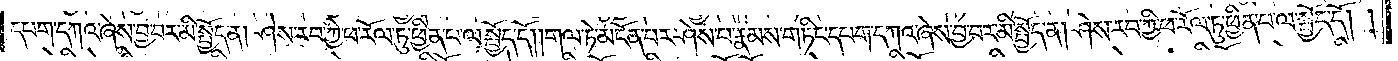དཔག་དཀའ་ཞེས་བྱ་བར་མི་སྤྱོད་ན། ཤེས་རབ་ཀྱི་ཕ་རོལ་ཏུ་ཕྱིན་པ་ལ་སྤྱོད་དོ། །གལ་ཏེ་མངོན་པར་ཤེས་པ་རྣམས་གཏིང་དཔག་དཀའ་ཞེས་བྱ་བར་མི་སྤྱོད་ན། ཤེས་རབ་ཀྱི་ཕ་རོལ་ཏུ་ཕྱིན་པ་ལ་སྤྱོད་དོ། །
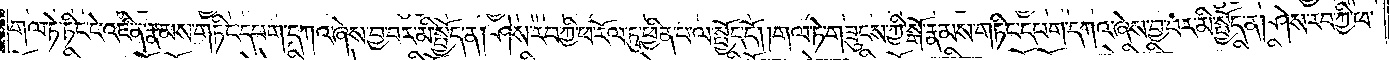གལ་ཏེ་ཏིང་ངེ་འཛིན་རྣམས་གཏིང་དཔག་དཀའ་ཞེས་བྱ་བར་མི་སྤྱོད་ན། ཤེས་རབ་ཀྱི་ཕ་རོལ་ཏུ་ཕྱིན་པ་ལ་སྤྱོད་དོ། །གལ་ཏེ་གཟུངས་ཀྱི་སྒོ་རྣམས་གཏིང་དཔག་དཀའ་ཞེས་བྱ་བར་མི་སྤྱོད་ན། ཤེས་རབ་ཀྱི་ཕ་
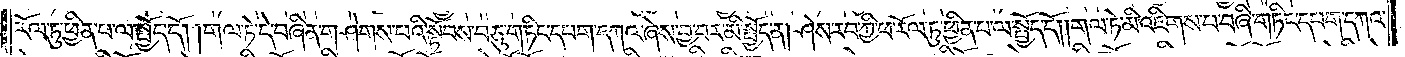རོལ་ཏུ་ཕྱིན་པ་ལ་སྤྱོད་དོ། །གལ་ཏེ་དེ་བཞིན་གཤེགས་པའི་སྟོབས་བཅུ་གཏིང་དཔག་དཀའ་ཞེས་བྱ་བར་མི་སྤྱོད་ན། ཤེས་རབ་ཀྱི་ཕ་རོལ་ཏུ་ཕྱིན་པ་ལ་སྤྱོད་དོ། །གལ་ཏེ་མི་འཇིགས་པ་བཞི་གཏིང་དཔག་དཀའ་
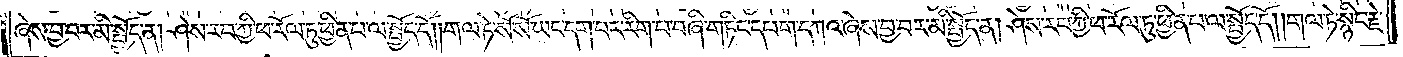ཞེས་བྱ་བར་མི་སྤྱོད་ན། ཤེས་རབ་ཀྱི་ཕ་རོལ་ཏུ་ཕྱིན་པ་ལ་སྤྱོད་དོ། །གལ་ཏེ་སོ་སོ་ཡང་དག་པར་རིག་པ་བཞི་གཏིང་དཔག་དཀའ་ཞེས་བྱ་བར་མི་སྤྱོད་ན། ཤེས་རབ་ཀྱི་ཕ་རོལ་ཏུ་ཕྱིན་པ་ལ་སྤྱོད་དོ། །གལ་ཏེ་སྙིང་རྗེ་
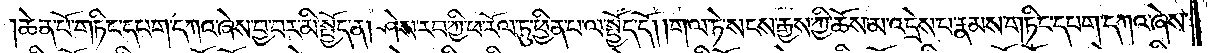ཆེན་པོ་གཏིང་དཔག་དཀའ་ཞེས་བྱ་བར་མི་སྤྱོད་ན། ཤེས་རབ་ཀྱི་ཕ་རོལ་ཏུ་ཕྱིན་པ་ལ་སྤྱོད་དོ། །གལ་ཏེ་སངས་རྒྱས་ཀྱི་ཆོས་མ་འདྲེས་པ་རྣམས་གཏིང་དཔག་དཀའ་ཞེས་
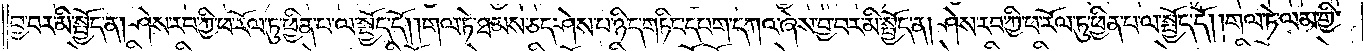བྱ་བར་མི་སྤྱོད་ན། ཤེས་རབ་ཀྱི་ཕ་རོལ་ཏུ་ཕྱིན་པ་ལ་སྤྱོད་དོ། །གལ་ཏེ་ཐམས་ཅད་ཤེས་པ་ཉིད་གཏིང་དཔག་དཀའ་ཞེས་བྱ་བར་མི་སྤྱོད་ན། ཤེས་རབ་ཀྱི་ཕ་རོལ་ཏུ་ཕྱིན་པ་ལ་སྤྱོད་དོ། །གལ་ཏེ་ལམ་གྱི་
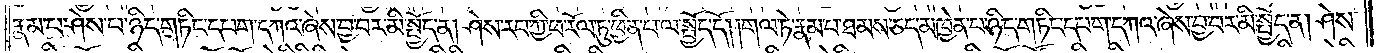རྣམ་པར་ཤེས་པ་ཉིད་གཏིང་དཔག་དཀའ་ཞེས་བྱ་བར་མི་སྤྱོད་ན། ཤེས་རབ་ཀྱི་ཕ་རོལ་ཏུ་ཕྱིན་པ་ལ་སྤྱོད་དོ། །གལ་ཏེ་རྣམ་པ་ཐམས་ཅད་མཁྱེན་པ་ཉིད་གཏིང་དཔག་དཀའ་ཞེས་བྱ་བར་མི་སྤྱོད་ན། ཤེས་
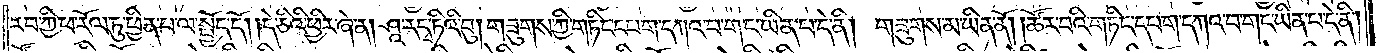རབ་ཀྱི་ཕ་རོལ་ཏུ་ཕྱིན་པ་ལ་སྤྱོད་དོ། །དེ་ཅིའི་ཕྱིར་ཞེ་ན། ཤཱ་རདྭ་ཏིའི་བུ། གཟུགས་ཀྱི་གཏིང་དཔག་དཀའ་བ་གང་ཡིན་པ་དེ་ནི། གཟུགས་མ་ཡིན་ནོ། །ཚོར་བའི་གཏིང་དཔག་དཀའ་བ་གང་ཡིན་པ་དེ་ནི།
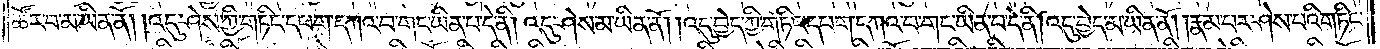ཚོར་བ་མ་ཡིན་ནོ། །འདུ་ཤེས་ཀྱི་གཏིང་དཔག་དཀའ་བ་གང་ཡིན་པ་དེ་ནི། འདུ་ཤེས་མ་ཡིན་ནོ། །འདུ་བྱེད་ཀྱི་གཏིང་དཔག་དཀའ་བ་གང་ཡིན་པ་དེ་ནི། འདུ་བྱེད་མ་ཡིན་ནོ། །རྣམ་པར་ཤེས་པའི་གཏིང་
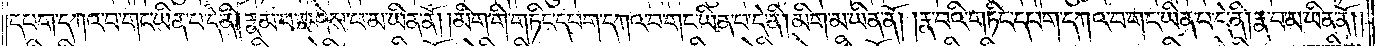དཔག་དཀའ་བ་གང་ཡིན་པ་དེ་ནི། རྣམ་པར་ཤེས་པ་མ་ཡིན་ནོ། །མིག་གི་གཏིང་དཔག་དཀའ་བ་གང་ཡིན་པ་དེ་ནི། མིག་མ་ཡིན་ནོ། །རྣ་བའི་གཏིང་དཔག་དཀའ་བ་གང་ཡིན་པ་དེ་ནི། རྣ་བ་མ་ཡིན་ནོ། །
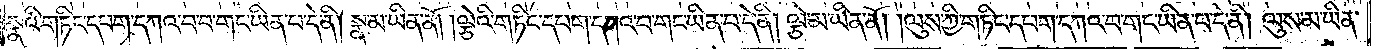སྣའི་གཏིང་དཔག་དཀའ་བ་གང་ཡིན་པ་དེ་ནི། སྣ་མ་ཡིན་ནོ། །ལྕེའི་གཏིང་དཔག་དཀའ་བ་གང་ཡིན་པ་དེ་ནི། ལྕེ་མ་ཡིན་ནོ། །ལུས་ཀྱི་གཏིང་དཔག་དཀའ་བ་གང་ཡིན་པ་དེ་ནི། ལུས་མ་ཡིན་
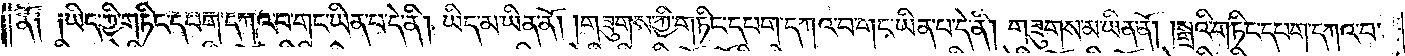ནོ༑ ༑ཡིད་ཀྱི་གཏིང་དཔག་དཀའ་བ་གང་ཡིན་པ་དེ་ནི། ཡིད་མ་ཡིན་ནོ། །གཟུགས་ཀྱི་གཏིང་དཔག་དཀའ་བ་གང་ཡིན་པ་དེ་ནི། གཟུགས་མ་ཡིན་ནོ། །སྒྲའི་གཏིང་དཔག་དཀའ་བ་
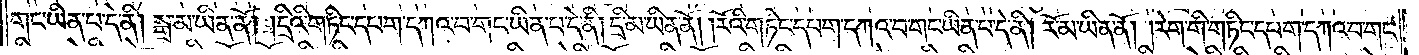གང་ཡིན་པ་དེ་ནི། སྒྲ་མ་ཡིན་ནོ། །དྲིའི་གཏིང་དཔག་དཀའ་བ་གང་ཡིན་པ་དེ་ནི། དྲི་མ་ཡིན་ནོ། །རོའི་གཏིང་དཔག་དཀའ་བ་གང་ཡིན་པ་དེ་ནི། རོ་མ་ཡིན་ནོ། །རེག་གི་གཏིང་དཔག་དཀའ་བ་གང་
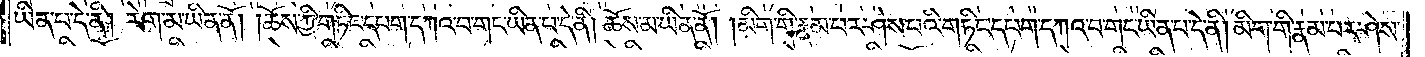ཡིན་པ་དེ་ནི། རེག་མ་ཡིན་ནོ། །ཆོས་ཀྱི་གཏིང་དཔག་དཀའ་བ་གང་ཡིན་པ་དེ་ནི། ཆོས་མ་ཡིན་ནོ། །མིག་གི་རྣམ་པར་ཤེས་པའི་གཏིང་དཔག་དཀའ་བ་གང་ཡིན་པ་དེ་ནི། མིག་གི་རྣམ་པར་ཤེས་
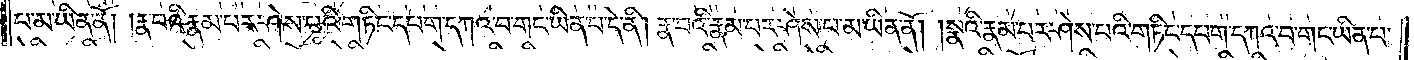པ་མ་ཡིན་ནོ། །རྣ་བའི་རྣམ་པར་ཤེས་པའི་གཏིང་དཔག་དཀའ་བ་གང་ཡིན་པ་དེ་ནི། རྣ་བའི་རྣམ་པར་ཤེས་པ་མ་ཡིན་ནོ། །སྣའི་རྣམ་པར་ཤེས་པའི་གཏིང་དཔག་དཀའ་བ་གང་ཡིན་པ་
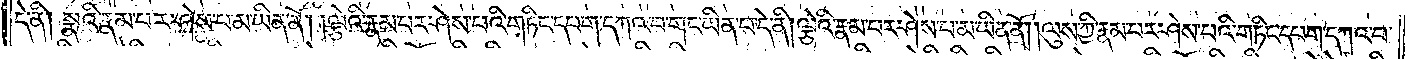དེ་ནི། སྣའི་རྣམ་པར་ཤེས་པ་མ་ཡིན་ནོ། །ལྕེའི་རྣམ་པར་ཤེས་པའི་གཏིང་དཔག་དཀའ་བ་གང་ཡིན་པ་དེ་ནི། ལྕེའི་རྣམ་པར་ཤེས་པ་མ་ཡིན་ནོ། །ལུས་ཀྱི་རྣམ་པར་ཤེས་པའི་གཏིང་དཔག་དཀའ་བ་
